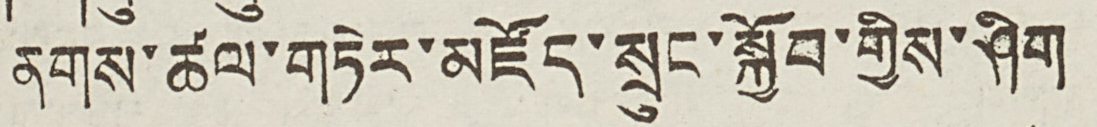ནགས་ཚལ་གཏེར་མཛོད་སྲུང་སྐྱོབ་གྱིས་ཤིག
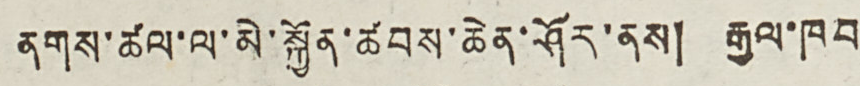ནགས་ཚལ་ལ་མེ་སྐྱོན་ཚབས་ཆེན་ཤོར་ནས། རྒྱལ་ཁབ
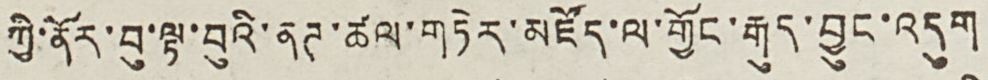ཀྱི་ནོར་བུ་ལྟ་བུའི་ནཊ་ཚལ་གཏེར་མཛོད་ལ་གྱོང་རྒུད་བྱུང་འདུག
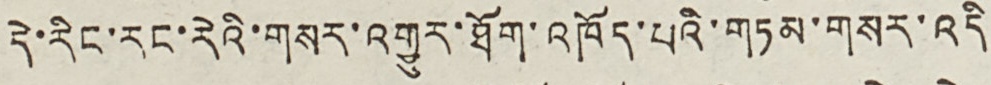དེ་རིང་རང་རེའི་གསར་འགྱུར་ཐོག་འཁོད་པའི་གཏམ་གསར་འདི
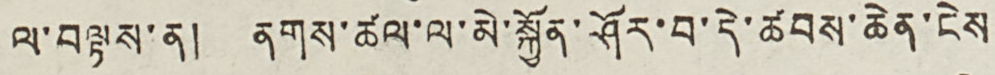ལ་བལྟས་ན། ནགས་ཚལ་ལ་མེ་སྐྱོན་ཤོར་བ་དེ་ཚབས་ཆེན་ངེས
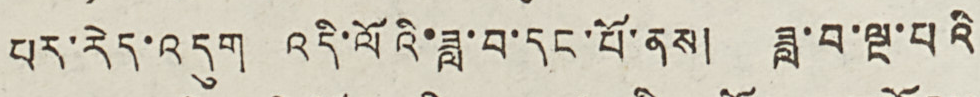པར་རེད་འདུག འདི་ལོའི་ཟླ་བ་དང་པོ་ནས། ཟླ་བ་ལྔ་པའི
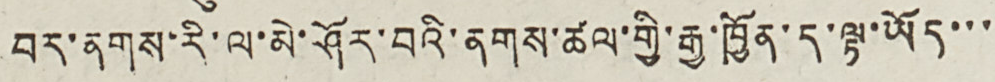བར་ནགས་རི་ལ་མེ་ཤོར་བའི་ནགས་ཚལ་གྱི་རྒྱ་ཁྱོན་ད་ལྟ་ཡོད་་་
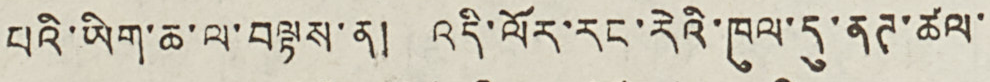པའི་ཡིག་ཆ་ལ་བལྟས་ན། འདི་ལོར་རང་རེའི་ཁུལ་དུ་ནཊ་ཚལ་
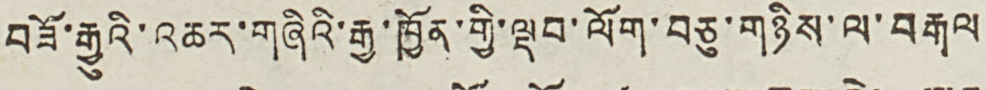བཟོ་རྒྱུའི་འཆར་གཞིའི་རྒྱ་ཁྱོན་གྱི་ལྡབ་ལོག་བཅུ་གཉིས་ལ་བརྒལ
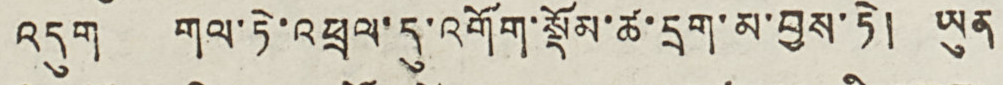འདུག གལ་ཏེ་འཕྲལ་དུ་འགོག་སྡོམ་ཚ་དྲག་མ་བྱས་ཏེ། ཡུན
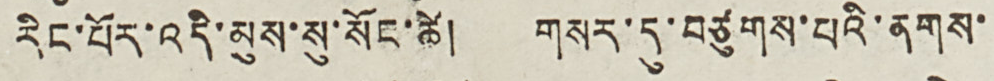རིང་པོར་འདི་མུས་སུ་སོང་ཚེ། གསར་དུ་བཙུགས་པའི་ནགས་
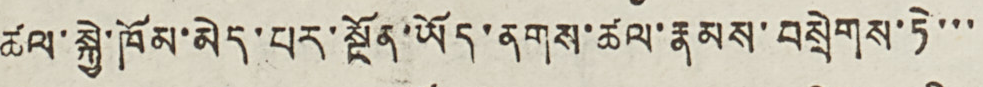ཚལ་སྐྱེ་ཁོམ་མེད་པར་སྔོན་ཡོད་ནགས་ཚལ་རྣམས་བསྲེགས་ཏེ་་་
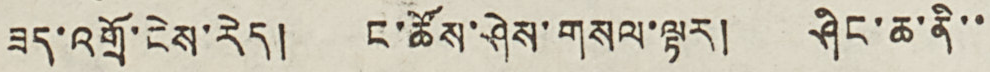ཟད་འགྲོ་ངེས་རེད། ང་ཚོས་ཤེས་གསལ་ལྟར། ཤིང་ཆ་ནི་་
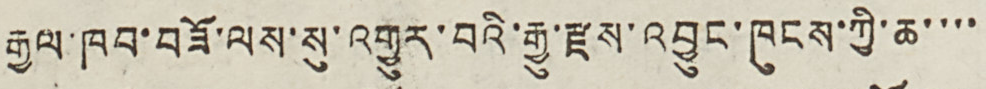རྒྱལ་ཁབ་བཟོ་ལས་སུ་འགྱུར་བའི་རྒྱུ་རྫས་འབྱུང་ཁུངས་ཀྱི་ཆ་་་་
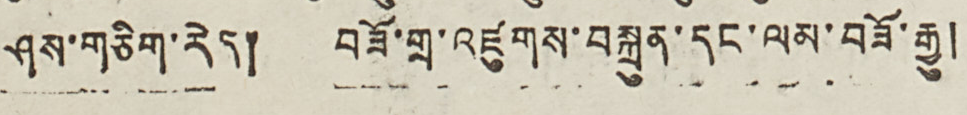ཤས་གཅིག་རེད། བཟོ་གྲ་འཛུགས་བསྐྲུན་དང་ལམ་བཟོ་རྒྱུ།
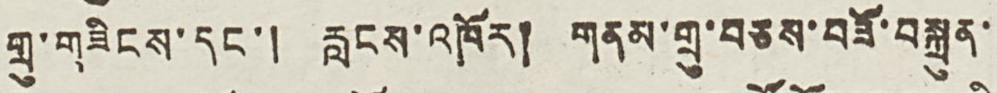གྲུ་གཟིངས་དང་། རླངས་འཁོར། གནམ་གྲུ་བཅས་བཟོ་བསྐྲུན་
